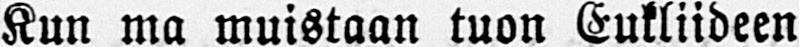Kun ma muistaan tuon Eukliideen
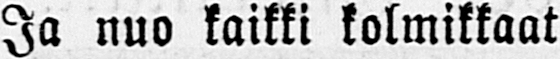Ja nuo kaikki kolmikkaat
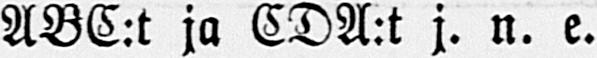ABC:t ja CDA:t j. n. e.
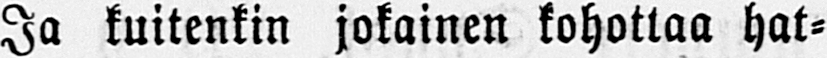Ja kuitenkin jokainen kohottaa hat-
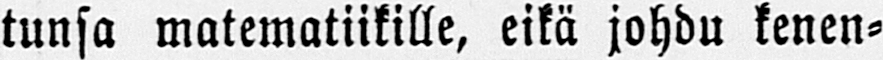tunsa matematiikille, eikä johdu kenen-
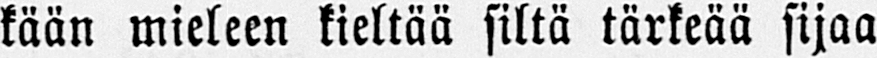kään mieleen kieltää siltä tärkeää sijaa
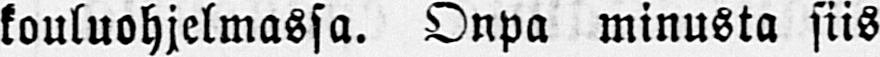kouluohjelmassa. Onpa minusta siis
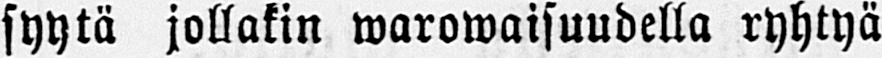syytä jollakin warowaisuudella ryhtyä
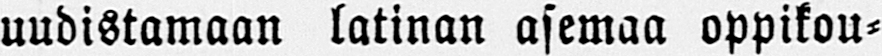uudistamaan latinan asemaa oppikou-
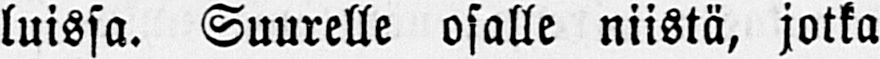luissa. Suurelle osalle niistä, jotka
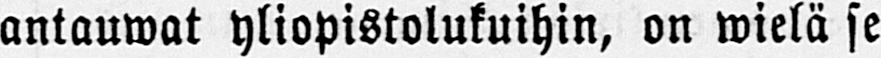antauwat yliopistolukuihin, on wielä se
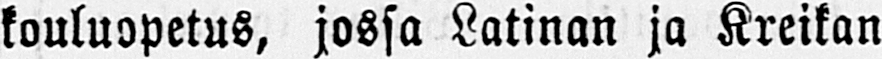kouluopetus, jossa Latinan ja Kreikan
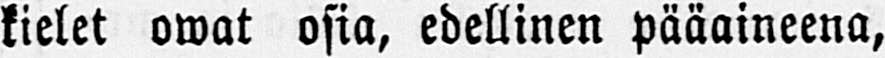kielet owat osia, edellinen pääaineena,
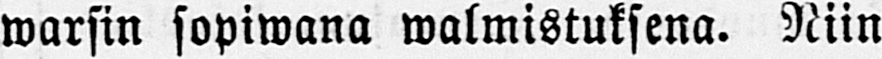warsin sopiwana walmistuksena. Niin
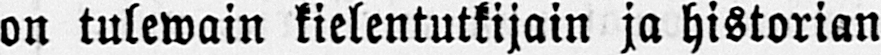on tulewain kielentutkijain ja historian
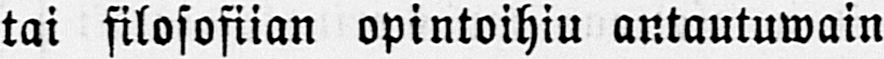tai filosofiian opintoihin antautuwain
